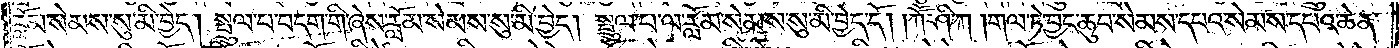རློམ་སེམས་སུ་མི་བྱེད། སྤྲུལ་པ་བདག་གི་ཞེས་རློམ་སེམས་སུ་མི་བྱེད། སྤྲུལ་པ་ལ་རློམ་སེམས་སུ་མི་བྱེད་དོ། །ཀཽ་ཤ་ཀ། གལ་ཏེ་བྱང་ཆུབ་སེམས་དཔའ་སེམས་དཔའ་ཆེན་
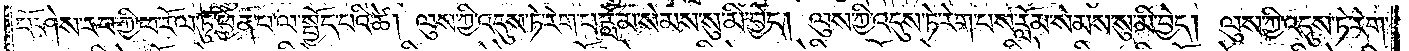པོ་ཤེས་རབ་ཀྱི་ཕ་རོལ་ཏུ་ཕྱིན་པ་ལ་སྤྱོད་པའི་ཚེ། ལུས་ཀྱི་འདུས་ཏེ་རེག་པ་རློམ་སེམས་སུ་མི་བྱེད། ལུས་ཀྱི་འདུས་ཏེ་རེག་པས་རློམ་སེམས་སུ་མི་བྱེད། ལུས་ཀྱི་འདུས་ཏེ་རེག་
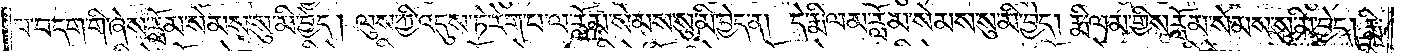པ་བདག་གི་ཞེས་རློམ་སེམས་སུ་མི་བྱེད། ལུས་ཀྱི་འདུས་ཏེ་རེག་པ་ལ་རློམ་སེམས་སུ་མི་བྱེད་ན། དེ་རྨི་ལམ་རློམ་སེམས་སུ་མི་བྱེད། རྨི་ལམ་གྱིས་རློམ་སེམས་སུ་མི་བྱེད། རྨི་
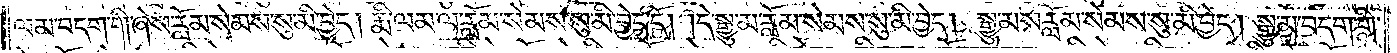ལམ་བདག་གི་ཞེས་རློམ་སེམས་སུ་མི་བྱེད། རྨི་ལམ་ལ་རློམ་སེམས་སུ་མི་བྱེད་དོ། །དེ་སྒྱུ་མ་རློམ་སེམས་སུ་མི་བྱེད། སྒྱུ་མས་རློམ་སེམས་སུ་མི་བྱེད། སྒྱུ་མ་བདག་གི་
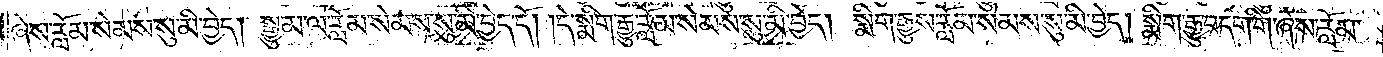ཞེས་རློམ་སེམས་སུ་མི་བྱེད། སྒྱུ་མ་ལ་རློམ་སེམས་སུ་མི་བྱེད་དོ། །དེ་སྨིག་རྒྱུ་རློམ་སེམས་སུ་མི་བྱེད། སྨིག་རྒྱུས་རློམ་སེམས་སུ་མི་བྱེད། སྨིག་རྒྱུ་བདག་གི་ཞེས་རློམ་
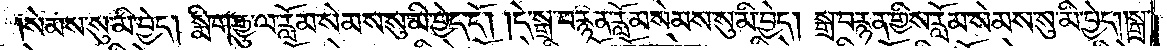སེམས་སུ་མི་བྱེད། སྨིག་རྒྱུ་ལ་རློམ་སེམས་སུ་མི་བྱེད་དོ། །དེ་སྒྲ་བརྙན་རློམ་སེམས་སུ་མི་བྱེད། སྒྲ་བརྙན་གྱིས་རློམ་སེམས་སུ་མི་བྱེད། སྒྲ་
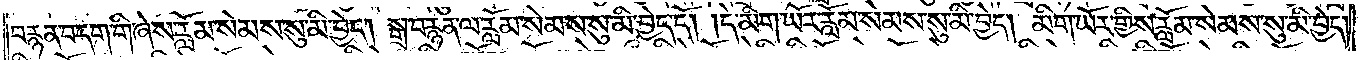བརྙན་བདག་གི་ཞེས་རློམ་སེམས་སུ་མི་བྱེད། སྒྲ་བརྙན་ལ་རློམ་སེམས་སུ་མི་བྱེད་དོ། །དེ་མིག་ཡོར་རློམ་སེམས་སུ་མི་བྱེད། མིག་ཡོར་གྱིས་རློམ་སེམས་སུ་མི་བྱེད།
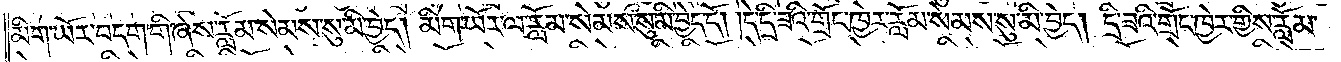མིག་ཡོར་བདག་གི་ཞེས་རློམ་སེམས་སུ་མི་བྱེད། མིག་ཡོར་ལ་རློམ་སེམས་སུ་མི་བྱེད་དོ། །དེ་དྲི་ཟའི་གྲོང་ཁྱེར་རློམ་སེམས་སུ་མི་བྱེད། དྲི་ཟའི་གྲོང་ཁྱེར་གྱིས་རློམ་
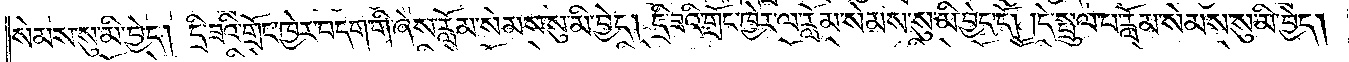སེམས་སུ་མི་བྱེད། དྲི་ཟའི་གྲོང་ཁྱེར་བདག་གི་ཞེས་རློམ་སེམས་སུ་མི་བྱེད། དྲི་ཟའི་གྲོང་ཁྱེར་ལ་རློམ་སེམས་སུ་མི་བྱེད་དོ། །དེ་སྤྲུལ་པ་རློམ་སེམས་སུ་མི་བྱེད།
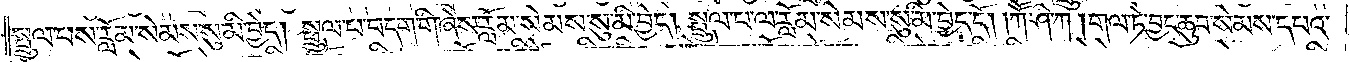སྤྲུལ་པས་རློམ་སེམས་སུ་མི་བྱེད། སྤྲུལ་པ་བདག་གི་ཞེས་རློམ་སེམས་སུ་མི་བྱེད། སྤྲུལ་པ་ལ་རློམ་སེམས་སུ་མི་བྱེད་དོ། །ཀཽ་ཤི་ཀ། གལ་ཏེ་བྱང་ཆུབ་སེམས་དཔའ་
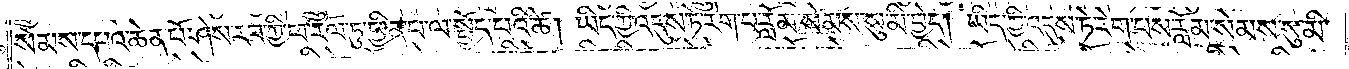སེམས་དཔའ་ཆེན་པོ་ཤེས་རབ་ཀྱི་ཕ་རོལ་ཏུ་ཕྱིན་པ་ལ་སྤྱོད་པའི་ཚེ། ཡིད་ཀྱི་འདུས་ཏེ་རེག་པ་རློམ་སེམས་སུ་མི་བྱེད། ཡིད་ཀྱི་འདུས་ཏེ་རེག་པས་རློམ་སེམས་སུ་མི་
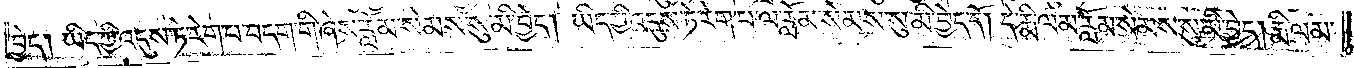བྱེད། ཡིད་ཀྱི་འདུས་ཏེ་རེག་པ་བདག་གི་ཞེས་རློམ་སེམས་སུ་མི་བྱེད། ཡིད་ཀྱི་འདུས་ཏེ་རེག་པ་ལ་རློམ་སེམས་སུ་མི་བྱེད་དོ། དེ་རྨི་ལམ་རློམ་སེམས་སུ་མི་བྱེད། རྨི་ལམ་
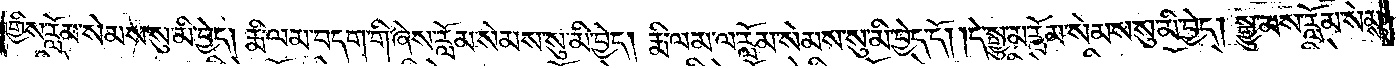གྱིས་རློམ་སེམས་སུ་མི་བྱེད། རྨི་ལམ་བདག་གི་ཞེས་རློམ་སེམས་སུ་མི་བྱེད། རྨི་ལམ་ལ་རློམ་སེམས་སུ་མི་བྱེད་དོ། །དེ་སྒྱུ་མ་རློམ་སེམས་སུ་མི་བྱེད། སྒྱུ་མས་རློམ་སེམས་
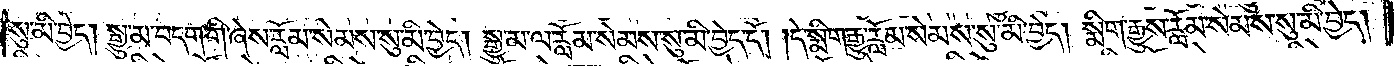སུ་མི་བྱེད། སྒྱུ་མ་བདག་གི་ཞེས་རློམ་སེམས་སུ་མི་བྱེད། སྒྱུ་མ་ལ་རློམ་སེམས་སུ་མི་བྱེད་དོ། །དེ་སྨིག་རྒྱུ་རློམ་སེམས་སུ་མི་བྱེད། སྨིག་རྒྱུས་རློམ་སེམས་སུ་མི་བྱེད།
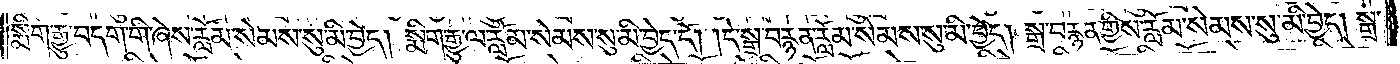སྨིག་རྒྱུ་བདག་གི་ཞེས་རློམ་སེམས་སུ་མི་བྱེད། སྨིག་རྒྱུ་ལ་རློམ་སེམས་སུ་མི་བྱེད་དོ། །དེ་སྒྲ་བརྙན་རློམ་སེམས་སུ་མི་བྱེད། སྒྲ་བརྙན་གྱིས་རློམ་སེམས་སུ་མི་བྱེད། སྒྲ་
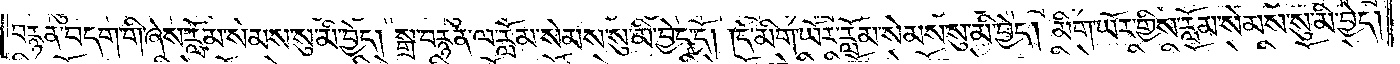བརྙན་བདག་གི་ཞེས་རློམ་སེམས་སུ་མི་བྱེད། བརྙན་ལ་རློམ་སེམས་སུ་མི་བྱེད་དོ། །དེ་མིག་ཡོར་རློམ་སེམས་སུ་མི་བྱེད། མིག་ཡོར་གྱིས་རློམ་སེམས་སུ་མི་བྱེད།
